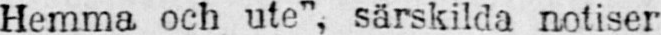“Hemma och ute“, särskilda notiser
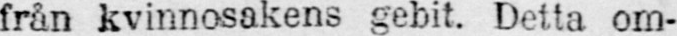från kvinnosakens gebit. Detta om-
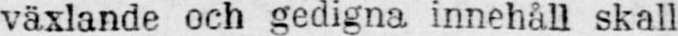växlande och gedigna innehåll skall
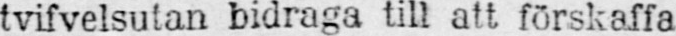tvifvelsutan bidraga till att förskaffa
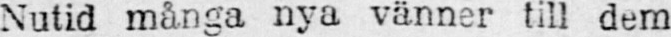Nutid många nya vänner till dem
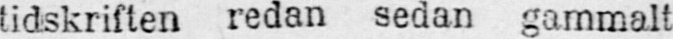tidskriften redan sedan gammalt
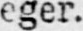eger.
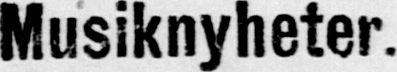Musiknyheter.
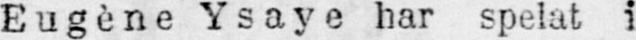Eugène Ysaye har spelat i
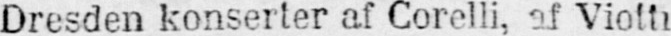Dresden konserter af Corelli, af Vioth
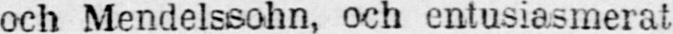och Mendelssohn, och entusiasmerat
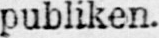publiken.
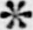*
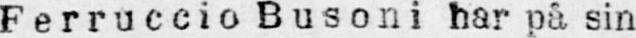Ferruccio Busoni har på sin
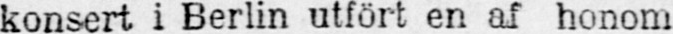konsert i Berlin utfört en af honom
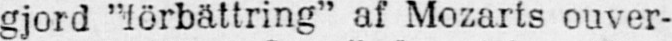gjord “förbättring“ af Mozarts ouver-
